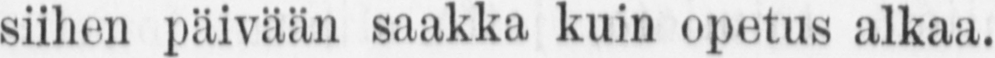siihen päivään saakka kuin opetus alkaa.
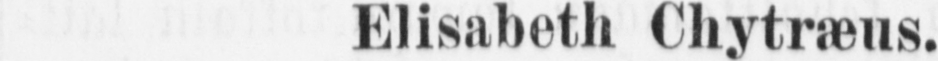Elisabeth Chytræ us.
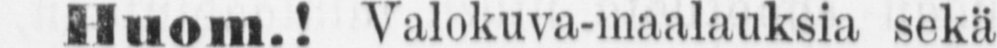H u om. ! Valokuva-maalauksia sekä
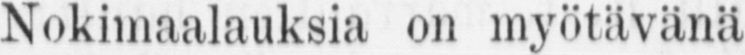Nokimaalauksia on myötävänä kirjakau-
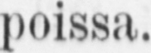poissa.
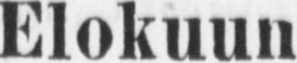Elokuun
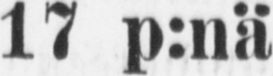17 p:nä
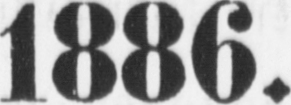1886.
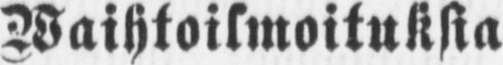Waihtoilmoituksia
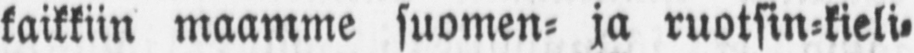kaikkiin maamme suomen- ja ruotsin-kieli-
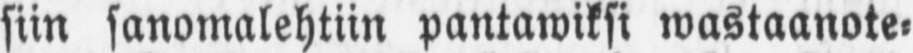siin sanomalehtiin pantawiksi wastaanote-
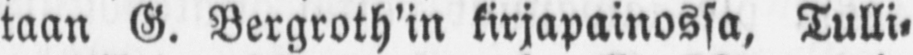taan G. Bergroth'in kirjapainossa, Tulli,
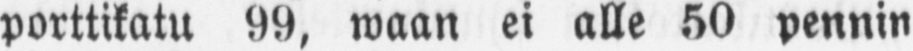porttikatu 99, waan ei alle 50 pennin
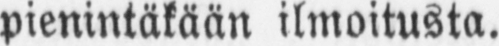pienintäkään ilmoitusta.
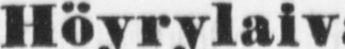Höyrylaiva
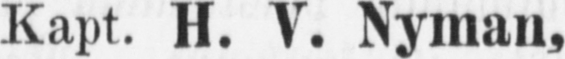Kapt. H. V. Nyman,
